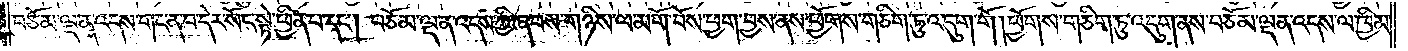བཅོམ་ལྡན་འདས་གང་ན་བ་དེར་སོང་སྟེ་ཕྱིན་པ་དང༌། བཅོམ་ལྡན་འདས་ཀྱི་ཞབས་གཉིས་ལ་མགོ་བོས་ཕྱག་བྱས་ནས་ཕྱོགས་གཅིག་ཏུ་འདུག་གོ། ཕྱོགས་གཅིག་ཏུ་འདུག་ནས་བཅོམ་ལྡན་འདས་ལ་ཁྱིམ་
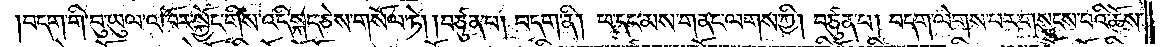བདག་གི་བུ་ཡུལ་འཁོར་སྐྱོང་གིས་འདི་སྐད་ཅེས་གསོལ་ཏེ། །བཙུན་པ། བདག་ནི། ཕ་དང་མས་གནང་ལགས་ཀྱི། བཙུན་པ། བདག་ལེགས་པར་གསུངས་པའི་ཆོས་
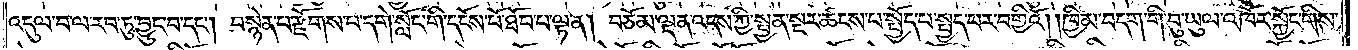འདུལ་བ་ལ་རབ་ཏུ་བྱུང་བ་དང༌། བསྙེན་པ་རྫོགས་པ་དགེ་སློང་གི་དངོས་པོ་ཐོབ་པ་ལྟ་ན། བཅོམ་ལྡན་འདས་ཀྱི་སྤྱན་སྔར་ཚངས་པ་སྤྱོད་པ་སྤྱད་པར་བགྱིའོ། །ཁྱིམ་བདག་གི་བུ་ཡུལ་འཁོར་སྐྱོང་གིས་
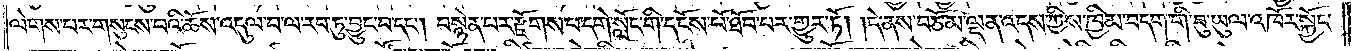ལེགས་པར་གསུངས་པའི་ཆོས་འདུལ་བ་ལ་རབ་ཏུ་བྱུང་བ་དང༌། བསྙེན་པར་རྫོགས་པ་དགེ་སློང་གི་དངོས་པོ་ཐོབ་པར་གྱུར་ཏོ། །དེ་ནས་བཅོམ་ལྡན་འདས་ཀྱིས་ཁྱིམ་བདག་གི་བུ་ཡུལ་འཁོར་སྐྱོང་
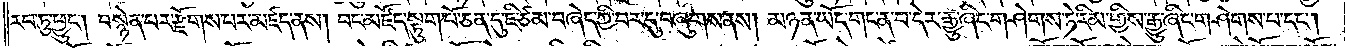རབ་ཏུ་ཕྱུང༌། བསྙེན་པར་རྫོགས་པར་མཛད་ནས། བང་མཛོད་སྟུག་པོ་ཅན་དུ་ཇི་ཙམ་བཞེད་ཀྱི་བར་དུ་བཞུགས་ནས། མཉན་ཡོད་གང་ན་བ་དེར་རྒྱུ་ཞིང་གཤེགས་ཏེ་རིམ་གྱིས་རྒྱུ་ཞིང་གཤེགས་པ་དང༌།
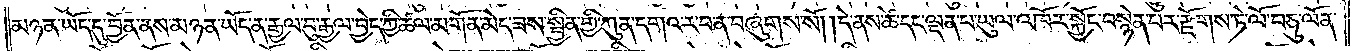མཉན་ཡོད་དུ་བྱོན་ནས་མཉན་ཡོད་ན་རྒྱལ་བུ་རྒྱལ་བྱེད་ཀྱི་ཚལ་མགོན་མེད་ཟས་སྦྱིན་གྱི་ཀུན་དགའ་ར་བ་ན་བཞུགས་སོ། །དེ་ནས་ཚེ་དང་ལྡན་པ་ཡུལ་འཁོར་སྐྱོང་བསྙེན་པར་རྫོགས་ཏེ་ལོ་བཅུ་ལོན་
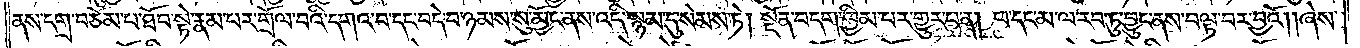ནས་དགྲ་བཅོམ་པ་ཐོབ་སྟེ་རྣམ་པར་གྲོལ་བའི་དགའ་བ་དང་བདེ་བ་ཉམས་སུ་མྱོང་ནས་འདི་སྙམ་དུ་སེམས་ཏེ། སྔོན་བདག་ཁྱིམ་པར་གྱུར་པ་ན། ཕ་དང་མ་ལ་རབ་ཏུ་བྱུང་ནས་བལྟ་བར་བྱའོ། །ཞེས་
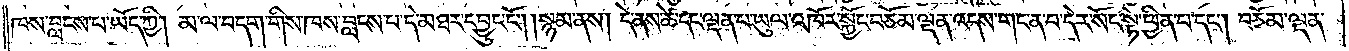ཁས་བླངས་པ་ཡོད་ཀྱི། མ་ལ་བདག་གིས་ཁས་བླངས་པ་དེ་མཐར་དབྱུང་ངོ༌། །སྙམ་ནས། དེ་ནས་ཚེ་དང་ལྡན་པ་ཡུལ་འཁོར་སྐྱོང་བཅོམ་ལྡན་འདས་གང་ན་བ་དེར་སོང་སྟེ་ཕྱིན་པ་དང༌། བཅོམ་ལྡན་
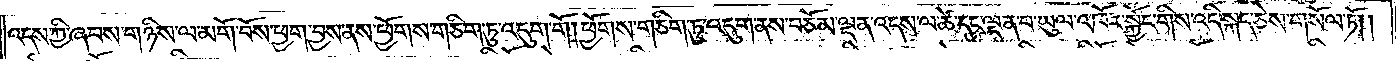འདས་ཀྱི་ཞབས་གཉིས་ལ་མགོ་བོས་ཕྱག་བྱས་ནས་ཕྱོགས་གཅིག་ཏུ་འདུག་གོ །ཕྱོགས་གཅིག་ཏུ་འདུག་ནས་བཅོམ་ལྡན་འདས་ལ་ཚེ་དང་ལྡན་པ་ཡུལ་འཁོར་སྐྱོང་གིས་འདི་སྐད་ཅེས་གསོལ་ཏོ༎
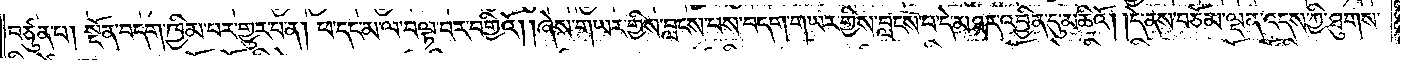བཙུན་པ། སྔོན་བདག་ཁྱིམ་པར་གྱུར་པ་ན། ཕ་དང་མ་ལ་བལྟ་བར་བགྱིའོ། །ཞེས་གཡར་གྱིས་བླངས་པས་བདག་གཡར་གྱིས་བླངས་པ་དེ་མཐར་འབྱིན་དུ་མཆིའོ། །དེ་ནས་བཅོམ་ལྡན་འདས་ཀྱི་ཐུགས་
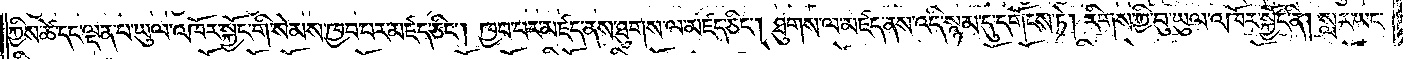ཀྱིས་ཚེ་དང་ལྡན་པ་ཡུལ་འཁོར་སྐྱོང་གི་སེམས་ཁྱབ་པར་མཛད་ཅིང༌། ཁྱབ་པར་མཛད་ནས་ཐུགས་ལ་མཛད་ཅིང༌། ཐུགས་ལ་མཛད་ནས་འདི་སྙམ་དུ་དགོངས་ཏེ། རིགས་ཀྱི་བུ་ཡུལ་འཁོར་སྐྱོང་ནི། སླར་ཡང་
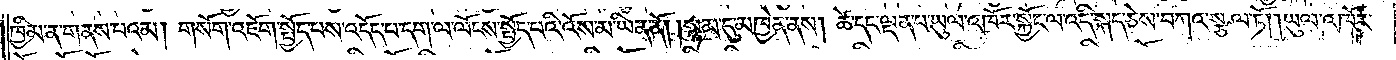ཁྱིམ་ན་གནས་པའམ། གསོག་འཇོག་སྤྱོད་པས་འདོད་པ་དག་ལ་ལོངས་སྤྱོད་པའི་འོས་མ་ཡིན་ནོ། །སྙམ་དུ་མཁྱེན་ནས། ཚེ་དང་ལྡན་པ་ཡུལ་འཁོར་སྐྱོང་ལ་འདི་སྐད་ཅེས་བཀའ་སྩལ་ཏོ། །ཡུལ་འཁོར་
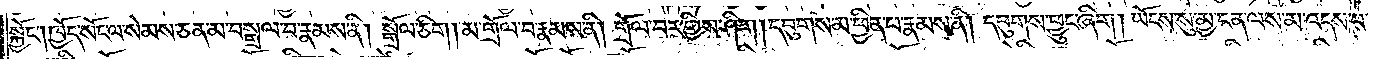སྐྱོང༌། ཁྱོད་སོང་ལ་སེམས་ཅན་མ་བསྒྲལ་བ་རྣམས་ནི། སྒྲོལ་ཅིག། མ་གྲོལ་བ་རྣམས་ནི། གྲོལ་བར་གྱིས་ཤིག། དབུགས་མ་ཕྱིན་པ་རྣམས་ནི། དབུགས་ཕྱུང་ཞིག། ཡོངས་སུ་མྱ་ངན་ལས་མ་འདས་པ་
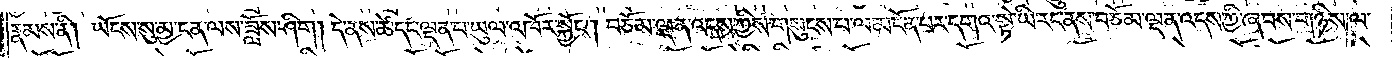རྣམས་ནི། ཡོངས་སུ་མྱ་ངན་ལས་ཟློས་ཤིག། དེ་ནས་ཚེ་དང་ལྡན་པ་ཡུལ་འཁོར་སྐྱོང༌། བཅོམ་ལྡན་འདས་ཀྱིས་གསུངས་པ་ལ་མངོན་པར་དགའ་སྟེ་ཡི་རང་ནས་བཅོམ་ལྡན་འདས་ཀྱི་ཞབས་གཉིས་ལ་
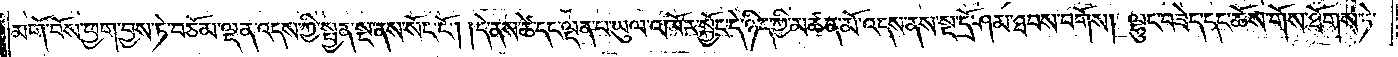མགོ་བོས་ཕྱག་བྱས་ཏེ་བཅོམ་ལྡན་འདས་ཀྱི་སྤྱན་སྔ་ནས་སོང་ངོ༌། །དེ་ནས་ཚེ་དང་ལྡན་པ་ཡུལ་འཁོར་སྐྱོང་དེ་ཉིད་ཀྱི་མཚན་མོ་འདས་ནས་སྔ་དྲོ་ཤམ་ཐབས་བགོས། ལྷུང་བཟེད་དང་ཆོས་གོས་ཐོགས་ཏེ་
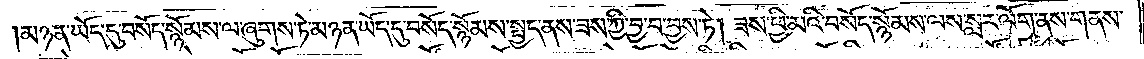མཉན་ཡོད་དུ་བསོད་སྙོམས་ལ་ཞུགས་ཏེ་མཉན་ཡོད་དུ་བསོད་སྙོམས་སྤྱད་ནས་ཟས་ཀྱི་བྱ་བ་བྱས་ཏེ། ཟས་ཕྱི་མའི་བསོད་སྙོམས་ལས་སླར་ལོག་ནས་གནས་
